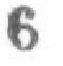6
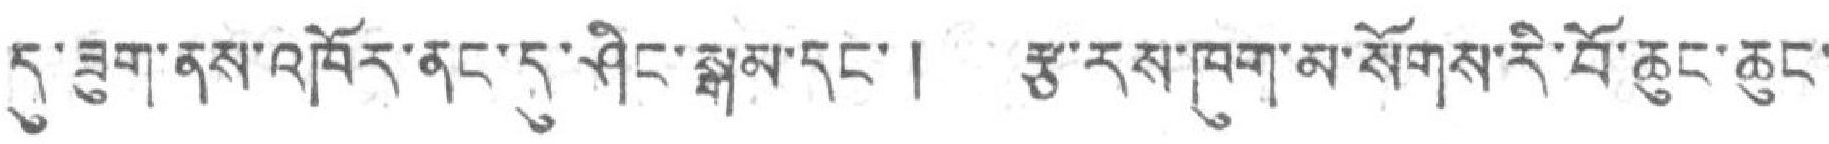དུ་ཟུག་ནས་འཁོར་ནང་དུ་ཤིང་སྒམ་དང་། རྩ་རས་ཁག་མ་སོགས་རི་བོ་ཆུང་ཆུང་
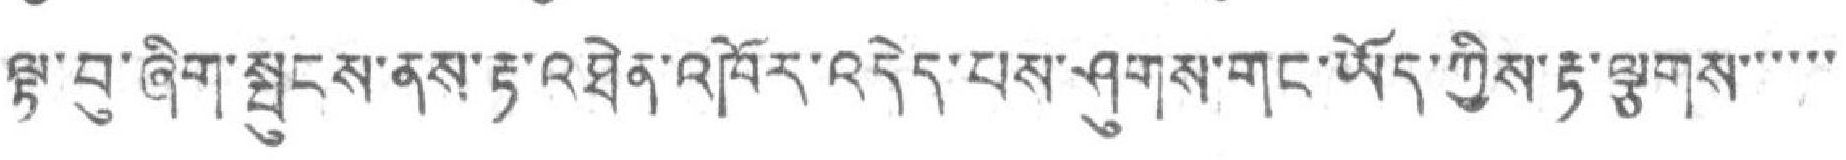ལྟ་བུ་ཞིག་སྤུངས་ནས་རྟ་འཐེན་འཁོར་འདེད་པས་ཤུགས་གང་ཡོད་ཀྱིས་རྟ་ལྕགས་་་་་་
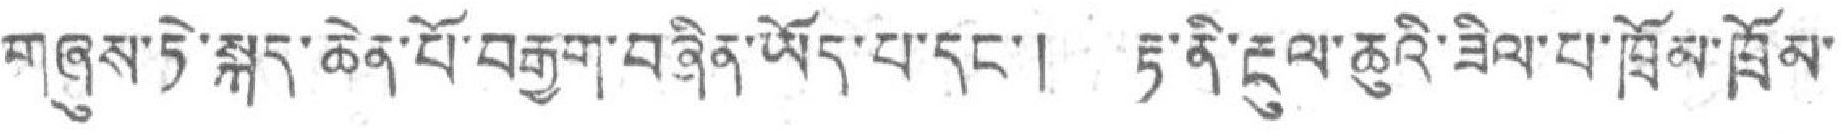གཞུས་ཏེ་སྐད་ཆེན་པོ་བརྒྱག་བཞིན་ཡོད་པ་དང་། རྟ་ནི་རྔུལ་ཆུའི་ཟིལ་པ་ཁྲོམ་ཁྲོམ་
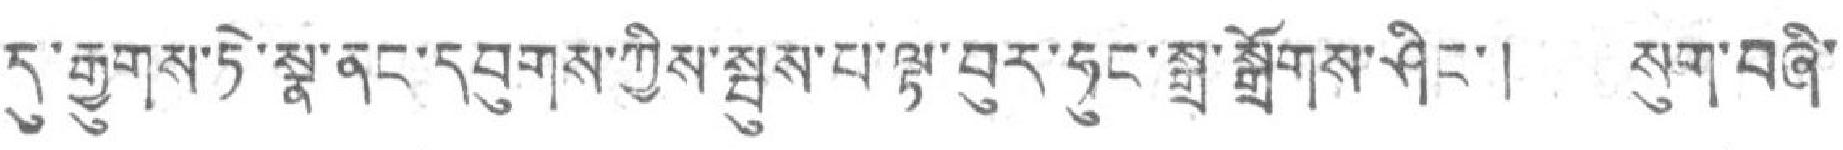དུ་རྒྱུགས་ཏེ་སྣ་ནང་དབུགས་ཀྱིས་སྦུས་པ་ལྟ་བུར་ཧུང་སྒྲ་སྒྲོགས་ཤིང་། སུག་བཞི་
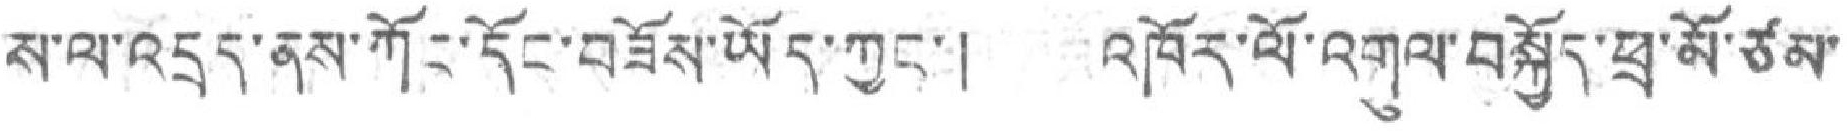ས་ལ་འདྲད་ནས་ཀོང་དོང་བཟོས་ཡོད་ཀྱང་། འཁོར་ལོ་འགུལ་བསྐྱོད་ཕྲ་མོ་ཙམ་
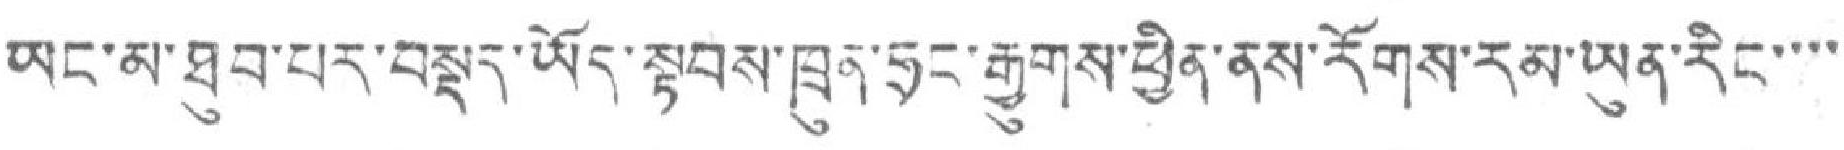ཡང་མ་ཐུབ་པར་བསྡུར་ཡོད་སྟབས་ཁྲུན་ཧྲང་རྒྱུགས་ཕྱིན་ནས་རོགས་རམ་ཡུན་རིང་་་་
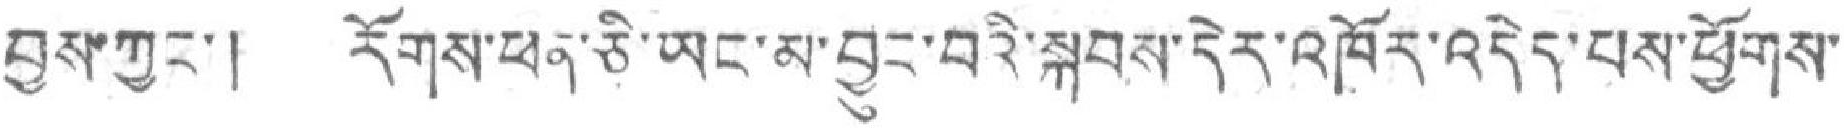བྱས་ཀྱང་། རོགས་ཕན་ཅི་ཡང་མ་བྱུང་བའི་སྐབས་དེར་འཁོར་འདེད་པས་ཕྱོགས་
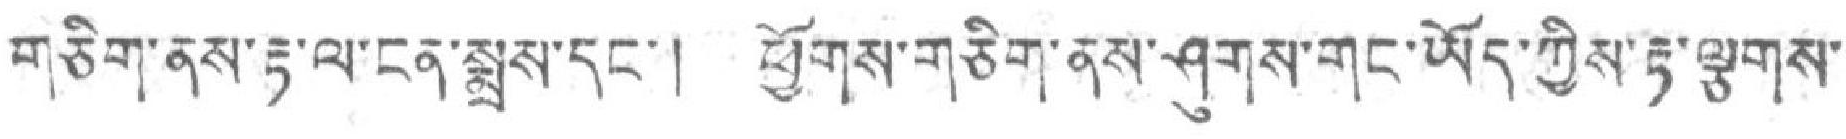གཅིག་ནས་རྟ་ལ་ངན་སྨྲས་དང་། ཕྱོགས་གཅིག་ནས་ཤུགས་གང་ཡོད་ཀྱིས་རྟ་ལྕགས་
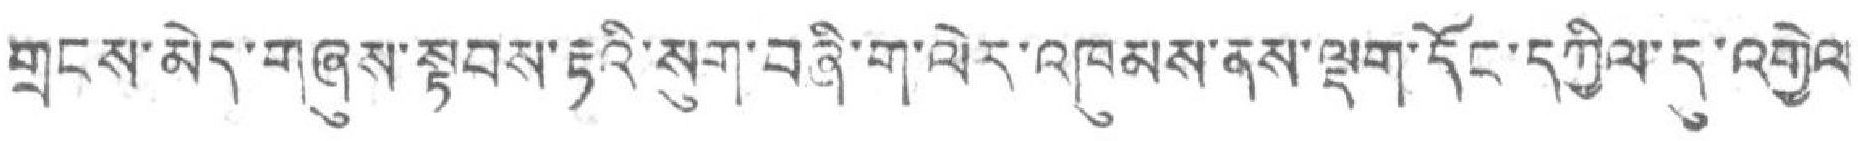གྲངས་མེད་གཞུས་སྟབས་རྟའི་སུག་བཞི་ག་ལེར་འཁུམས་ནས་ལྡག་དོང་དཀྱིལ་དུ་འགྱེལ་
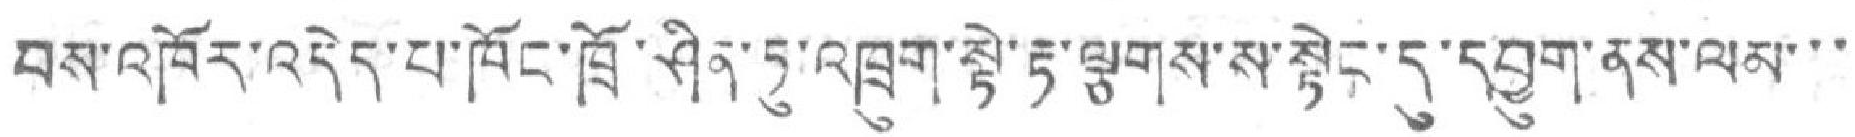བས་འཁོར་འདེད་པ་ཁོང་ཁྲོ་ཤིན་ཏུ་འཁྲུག་སྟེ་རྟ་ལྕགས་ས་སྟེང་དུ་དབྱུག་ནས་ལམ་་་
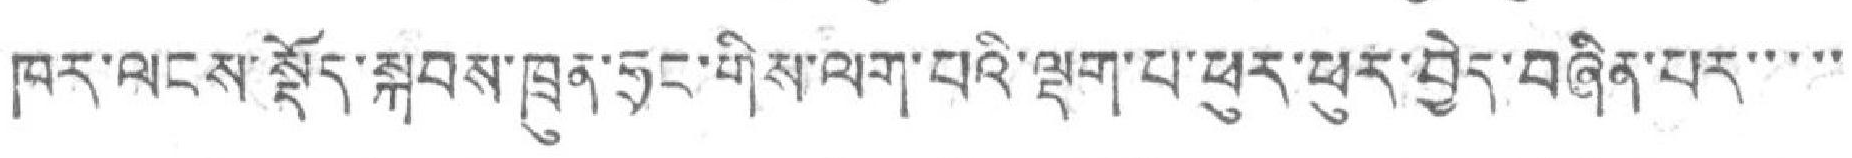ཁར་ལངས་སྟོད་སྐབས་ཁྲུན་ཧྲང་གིས་ལག་བའི་ལྡག་པ་ཕུར་ཕུར་བྱེད་བཞིན་པར་་་་་
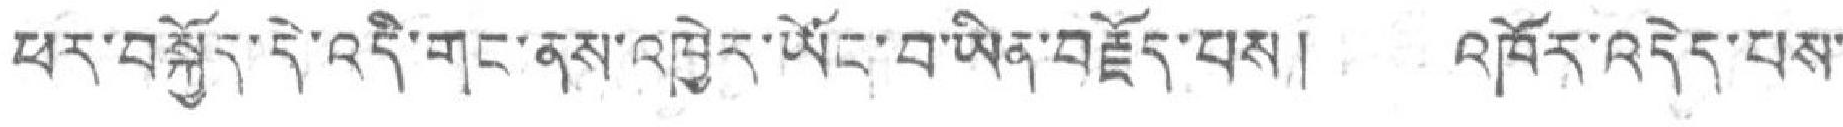ཕར་བསྐྱོད་དེ་འདི་གང་ནས་འཁྱེར་ཡོང་བ་ཡིན་བརྗོད་པས། འཁོར་འདེད་པས་
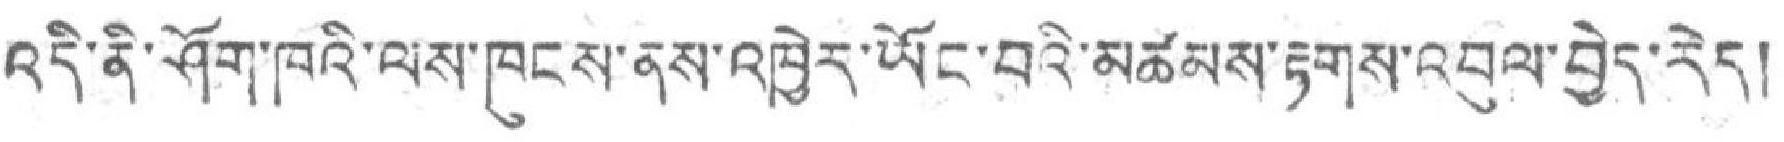འདི་ནི་ཤོག་ཁའི་ལས་ཁུངས་ནས་འཁྱེར་ཡོང་བའི་མཚམས་རྟགས་འབུལ་བྱེད་རེད།
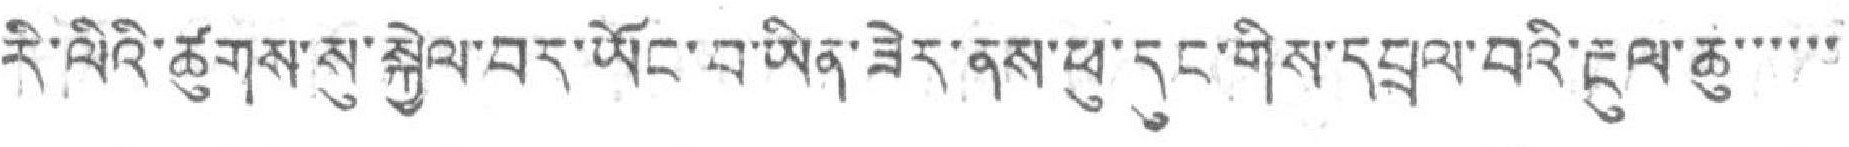རི་ལིའི་ཚུགས་སུ་སྐྱེལ་བར་ཡོང་བ་ཡིན་ཟེར་ནས་ཕུ་དུང་གིས་དཔྲལ་བའི་རྔུལ་ཆུ་་་་་་
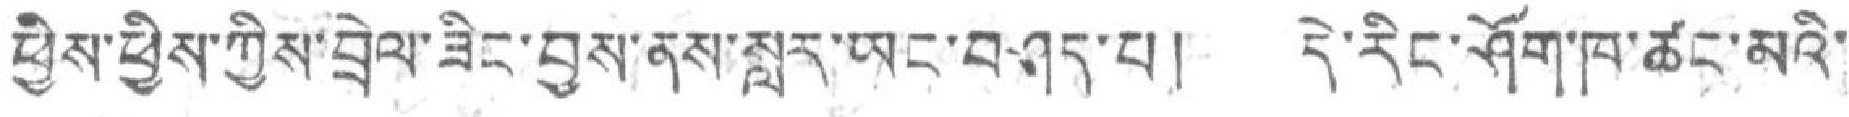ཕྱིས་ཕྱིས་ཀྱིས་བྲེལ་ཟིང་བྱས་ནས་སླར་ཡང་བཤད་པ། དེ་རིང་ཤོག་ཁ་ཚང་མའི་
